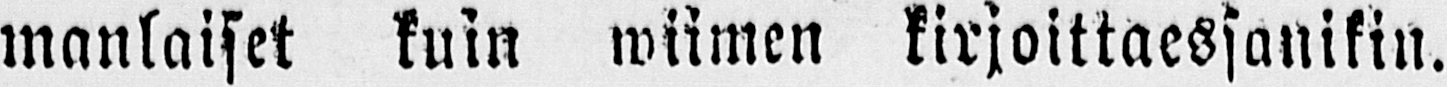manlaiset kuin wiimen kirjoittaessanikin.
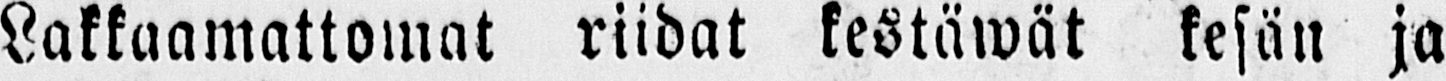Lakkaamattomat riidat kestäwät kesän ja
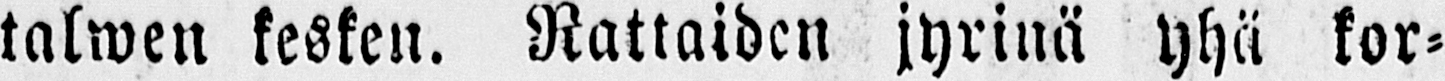talwen kesken. Rattaiden jyrinä yhä kor-
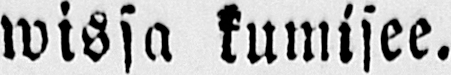wissa kumisee.
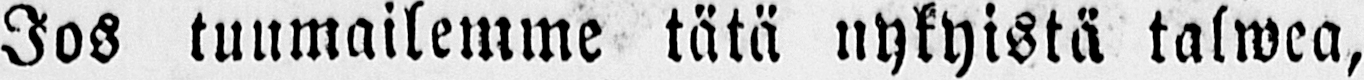Jos tuumailemme tätä nykyistä talwea,
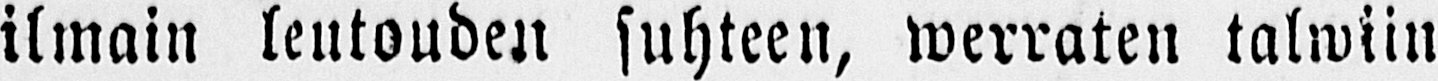ilmain lentouden suhteen, werraten talwiin
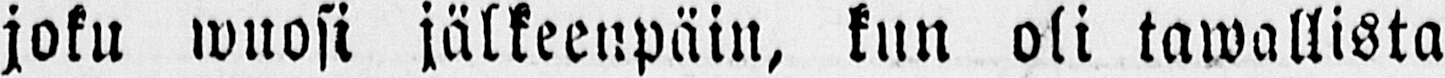joku wuosi jälkeenpäin, kun oli tuwallista
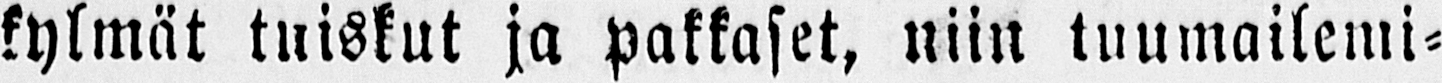kylmät tuiskut ja pakkaset, niin tuumailemi-
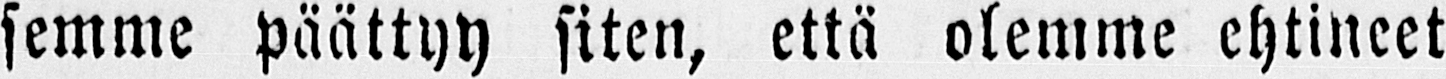semme päättyy siten, että olemme ehtineet
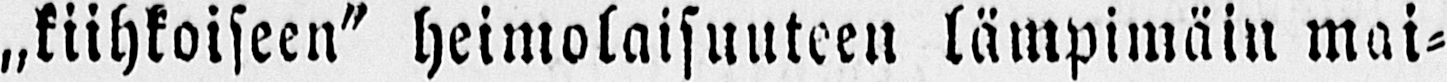„kiihkoiseen" heimolaisuuteen lämpimäin mai-
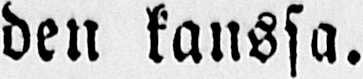den kanssa.
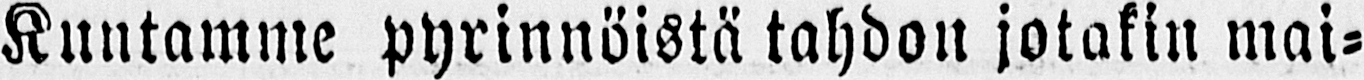Kuntamme pyrinnöistä tahdon jotakin mai-
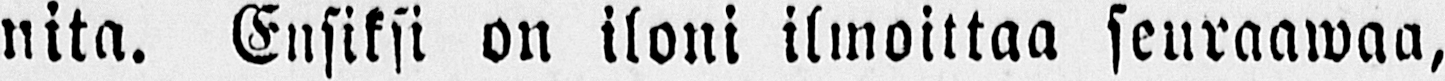nita. Ensiksi on iloni ilmoittaa seuraawaa,
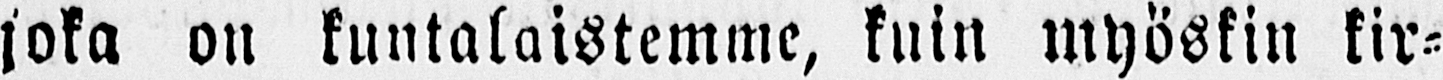joka on kuntalaistemme, kuin myöskin kir-
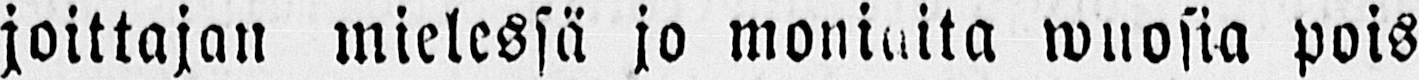joittajan mielessä jo moniaita wuosia pois
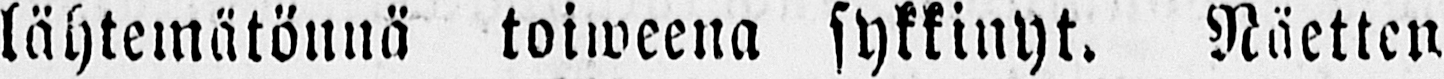lähtemätönnä toiweena sykkinyt. Näetten
